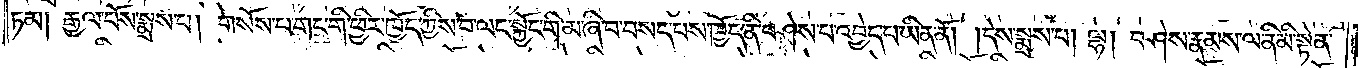ཏམ། རྒྱལ་པོས་སྨྲས་པ། གསོས་པ་གང་གི་ཕྱིར་ཁྱོད་ཀྱིས་བ་ལང་སྐྱོང་གི་མ་ཞི་བ་བསད་པས་ཁྱོད་ནི་བཤེས་པ་འབྱེད་པ་ཡིན་ནོ། །དེས་སྨྲས་པ། ལྷ། བཤེས་རྣམས་ལ་ནི་མི་སྟེན་
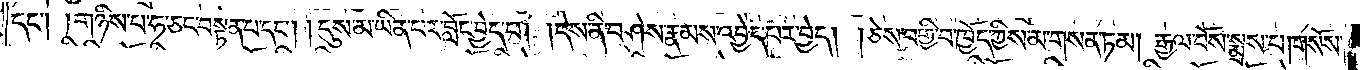དང༌། །གཉིས་པ་ཧ་ཅང་བསྟེན་པ་དང༌། །དུས་མ་ཡིན་པར་བློང་བྱེད་པ། །དེས་ནི་བཤེས་རྣམས་འབྱེད་པར་བྱེད། །ཅེས་བགྱི་བ་ཁྱོད་ཀྱིས་མ་གསན་ཏམ། རྒྱལ་པོས་སྨྲས་པ། གསོས་
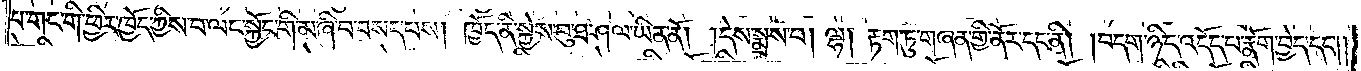པ་གང་གི་ཕྱིར་ཁྱོད་ཀྱིས་བ་ལང་སྐྱོང་གི་མ་ཞི་བ་བསད་པས། ཁྱོད་ནི་སྐྱེས་བུ་ཐ་ཤལ་ཡིན་ནོ། །དེས་སྨྲས་པ། ལྷ། རྟག་ཏུ་གཞན་གྱི་ནོར་དང་ནི། །བདག་ཉིད་འདོད་པ་རྣོག་བྱེད་དང༌༎
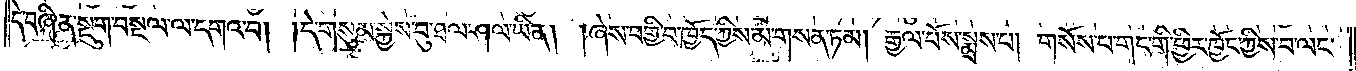དེ་བཞིན་སྡུག་བསྔལ་ལ་དགའ་བ། །དེ་གསུམ་སྐྱེས་བུ་ཐལ་ཤལ་ཡིན། །ཞེས་བགྱི་བ་ཁྱོད་ཀྱིས་མ་གསན་ཏམ། རྒྱལ་པོས་སྨྲས་པ། གསོས་པ་གང་གི་ཕྱིར་ཁྱོད་ཀྱིས་བ་ལང་
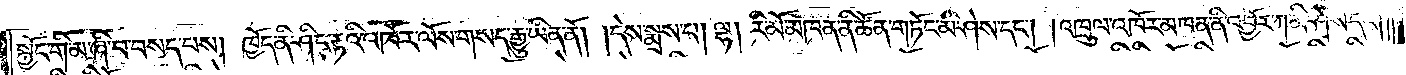སྐྱོང་གི་མ་ཞི་བ་བསད་པས། ཁྱོད་ནི་ཤིང་རྟའི་འཁོར་ལོས་གསད་རྒྱུ་ཡིན་ནོ། །དེས་སྨྲས་པ། ལྷ། རི་མོ་མཁན་ནི་ཚོན་གཏོང་མི་ཤེས་དང༌། །འཁྲུལ་འཁོར་མཁན་ནི་འབྱོར་ཀ་མི་ཤེས་དང༌༎
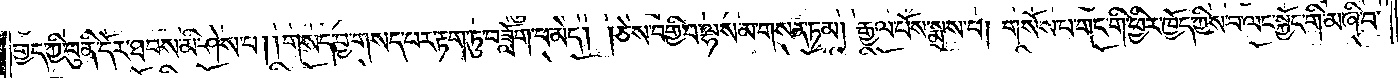གྱད་ཀྱི་བུ་ནི་དོར་ཐབས་མི་ཤེས་པ། །གསད་བྱ་གསད་པར་རྟག་ཏུ་བཟློག་པ་མེད། །ཅེས་བགྱི་བ་ལྷས་མ་གསན་ཏམ། རྒྱལ་པོས་སྨྲས་པ། གསོས་པ་གང་གི་ཕྱིར་ཁྱོད་ཀྱིས་བ་ལང་སྐྱོང་གི་མ་ཞི་བ་
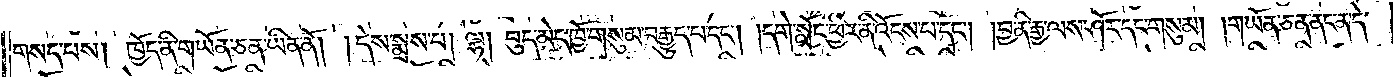གསད་པས། ཁྱོད་ནི་གཡོན་ཅན་ཡིན་ནོ། །དེས་སྨྲས་པ། ལྷ། བུད་མེད་ཁྱོ་གསུམ་བརྒྱུད་པ་དང༌། །དགེ་སློང་ཕྱིར་ནི་འོངས་པ་དང༌། །བྱ་ནི་རྒྱ་ལས་ཤོར་དང་གསུམ། །གཡོན་ཅན་ནང་ན་དེ་
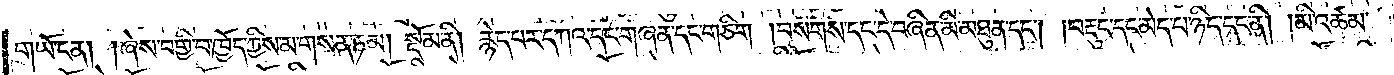གཡོ་ངན། །ཞེས་བགྱི་བ་ཁྱོད་ཀྱིས་མ་གསན་ཏམ། སྡོམ་ནི། རྙེད་པར་དཀའ་དང་གཞན་དང་གཅིག །བསགས་དང་དེ་བཞིན་མི་མཐུན་དང༌། །བརྡུང་དང་མེད་པ་ཉིད་དང་ནི། །མི་འཚམ་
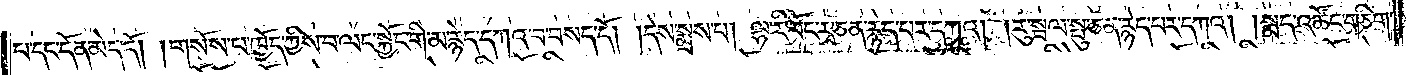པ་དང་དོན་མེད་དོ། །གསོས་པ་ཁྱོད་ཀྱིས་བ་ལང་སྐྱོང་གི་མ་རྙེད་དཀའ་བ་བསད་དོ། །དེས་སྨྲས་པ། ལྷ་རི་བོང་རྭ་ཅན་རྙེད་པར་དཀའ། །རུ་སྦལ་སྤུ་ཅན་རྙེད་པར་དཀའ། །སྨད་འཚོང་གཅིག་
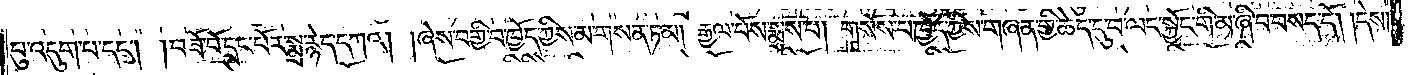པུ་འདུག་པ་དང༌། །བཟོ་བོ་དྲང་པོར་སྨྲ་རྙེད་དཀའ། །ཞེས་བགྱི་བ་ཁྱོད་ཀྱིས་མ་གསན་ཏམ། རྒྱལ་པོས་སྨྲས་པ། གསོས་པ་ཁྱོད་ཀྱིས་གཞན་གྱི་ཆེད་དུ་བ་ལང་སྐྱོང་གི་མ་ཞི་བ་བསད་དོ། །དེས་
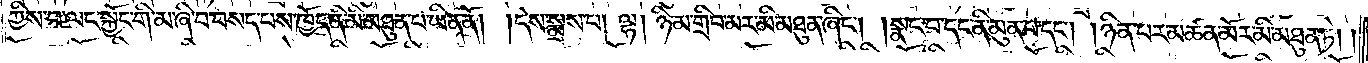ཀྱིས་བ་ལང་སྐྱོང་གི་མ་ཞི་བ་བསད་པས་ཁྱོད་ནི་མི་མཐུན་པ་ཡིན་ནོ། །དེས་སྨྲས་པ། ལྷ། ཉི་མ་གྲིབ་མར་མི་མཐུན་ཞིང༌། །སྣང་བ་དང་ནི་མུན་པ་དང༌། །ཉིན་པར་མཚན་མོར་མི་མཐུན་ཏེ། །
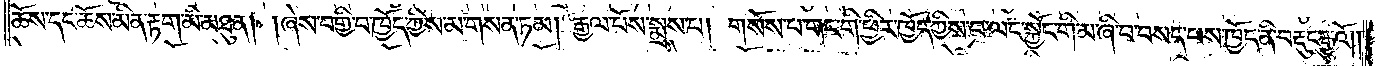ཆོས་དང་ཆོས་མིན་རྟག་མི་མཐུན། །ཞེས་བགྱི་བ་ཁྱོད་ཀྱིས་མ་གསན་ཏམ། རྒྱལ་པོས་སྨྲས་པ། གསོས་པ་གང་གི་ཕྱིར་ཁྱོད་ཀྱིས་བ་ལང་སྐྱོང་གི་མ་ཞི་བ་བསད་པས་ཁྱོད་ནི་བརྡུང་རྒྱུའོ༎
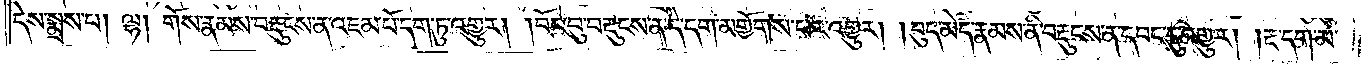དེས་སྨྲས་པ། ལྷ། གོས་རྣམས་བརྡུངས་ན་འཇམ་པོ་དག་ཏུ་འགྱུར། །བོང་བུ་བརྡུངས་ན་དེ་དག་མགྱོགས་པར་འགྱུར། །བུད་མེད་རྣམས་ནི་བརྡུངས་ན་དབང་དུ་འགྱུར། །རྔ་དག་མ་
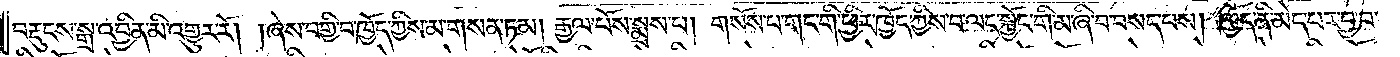བརྡུངས་སྒྲ་འབྱིན་མི་འགྱུར་རོ། །ཞེས་བགྱི་བ་ཁྱོད་ཀྱིས་མ་གསན་ཏམ། རྒྱལ་པོས་སྨྲས་པ། གསོས་པ་གང་གི་ཕྱིར་ཁྱོད་ཀྱིས་བ་ལང་སྐྱོང་གི་མ་ཞི་བ་བསད་པས། ཁྱོད་ནི་མེད་པར་བྱ་བ་
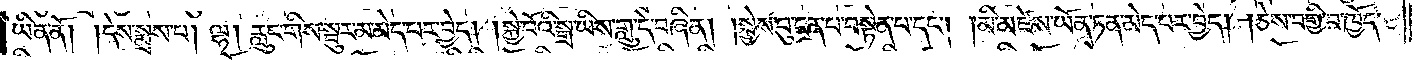ཡིན་ནོ། །དེས་སྨྲས་པ། ལྷ། རླུང་གིས་སྦུར་མ་མེད་པར་བྱེད། །སྐྱེ་བོའི་སྒྲ་ཡིས་གླུ་དེ་བཞིན། །སྐྱེས་བུ་ངན་པ་བསྟེན་པ་དང༌། །མི་མཛེས་ཡོན་ཏན་མེད་པར་བྱེད། །ཅེས་བགྱི་བ་ཁྱོད་
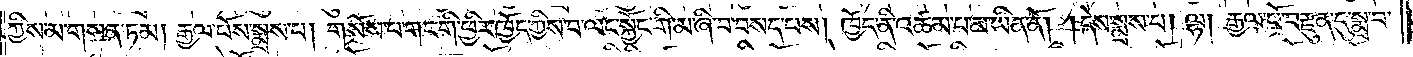ཀྱིས་མ་གསན་ཏམ། རྒྱལ་པོས་སྨྲས་པ། གསོས་པ་གང་གི་ཕྱིར་ཁྱོད་ཀྱིས་བ་ལང་སྐྱོང་གི་མ་ཞི་བ་བསད་པས། ཁྱོད་ནི་འཚམ་པ་མ་ཡིན་ནོ། །དེས་སྨྲས་པ། ལྷ། རྒྱལ་པོ་བརྫུན་དུ་སྨྲ་བ་
